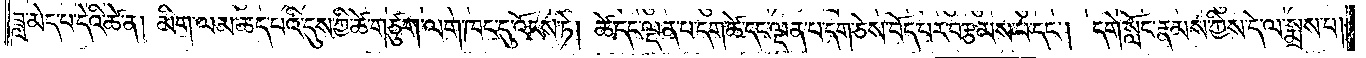ཟླ་མེད་པ་དེའི་ཚེ་ན། མིག་ལམ་ཆད་པའི་དུས་ཀྱི་ཚེ་གཙུག་ལག་ཁང་དུ་འོངས་ཏེ། ཚེ་དང་ལྡན་པ་དག་ཚེ་དང་ལྡན་པ་དག་ཅེས་བོད་པར་བརྩམས་པ་དང༌། དགེ་སློང་རྣམས་ཀྱིས་དེ་ལ་སྨྲས་པ།
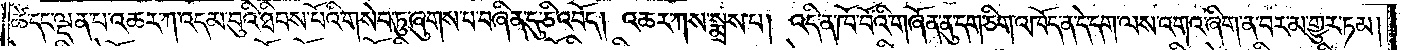ཚེ་དང་ལྡན་པ་འཆར་ཀ་འདམ་བུའི་ཐིབས་པོའི་གསེབ་ཏུ་ཞུགས་པ་བཞིན་དུ་ཅི་འབོད། འཆར་ཀས་སྨྲས་པ། འདི་ན་ཁོ་བོའི་གཞོན་ནུ་དག་ཅིག་འཁོད་ན་དེ་དག་ལས་འགའ་ཞིག་ན་བར་མ་གྱུར་ཏམ།
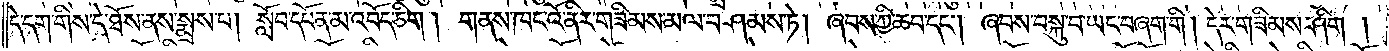དེ་དག་གིས་དེ་ཐོས་ནས་སྨྲས་པ། སློབ་དཔོན་མ་འབོད་ཅིག །གནས་ཁང་འོ་ནིར་གཟིམས་མལ་བཤམས་ཏེ། ཞབས་ཀྱི་ཆབ་དང༌། ཞབས་བསྐུ་བ་ཡང་བཞག་གི། དེར་གཟིམས་ཤིག །
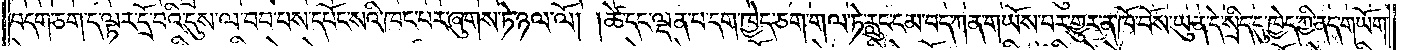བདག་ཅག་ད་ལྟར་དྲོ་བའི་དུས་ལ་བབ་པས་དཔོང་སའི་ཁང་པར་ཞུགས་ཏེ་ཉལ་ལོ། །ཚེ་དང་ལྡན་པ་དག་ཁྱེད་ཅག་གལ་ཏེ་རླུང་ངམ་བད་ཀན་གཡོས་པར་གྱུར་ན་ཁོ་བོས་ཡུན་དེ་སྲིད་དུ་ཁྱེད་ཀྱི་ནད་གཡོག་
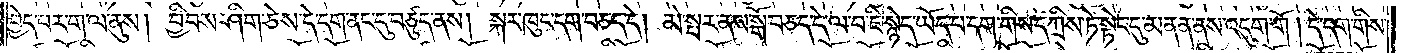བྱེད་པར་ག་ལ་ནུས། བྱི་བས་ཤིག་ཅེས་དེ་དག་ནང་དུ་བཙུད་ནས། སྐར་ཁུང་དག་བཅད་དེ། མེ་སྤར་ནས་སྒོ་བཅད་དེ་ལ་བ་ཇི་སྙེད་ཡོད་པ་དག་གིས་དཀྲིས་ཏེ་སྟེང་དུ་མནན་ནས་འདུག་གོ །དེ་དག་གིས་
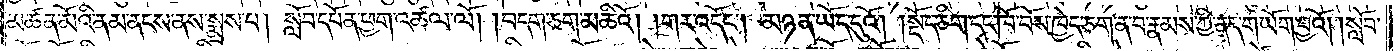མཚན་མོའི་ནམ་ནངས་ནས་སྨྲས་པ། སློབ་དཔོན་ཕྱག་འཚལ་ལོ། །བདག་ཅག་མཆིའོ། །གར་འདོང༌། མཉན་ཡོད་དུའོ། །སྡོད་ཅིག་དང་ཁོ་བོས་ཁྱེད་ཅག་ན་བ་རྣམས་ཀྱི་ནད་གཡོག་བྱའོ། །སློབ་
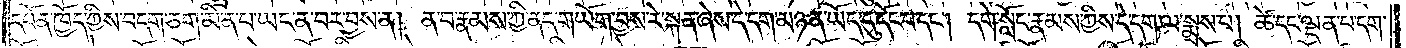དཔོན་ཁྱོད་ཀྱིས་བདག་ཅག་མིན་པ་ཡང་ན་བར་བྱས་ན། ན་བ་རྣམས་ཀྱི་ནད་གཡོག་བྱས་རེ་སྐན་ཞེས་དེ་དག་མཉན་ཡོད་དུ་དོང་བ་དང༌། དགེ་སློང་རྣམས་ཀྱིས་དེ་དག་ལ་སྨྲས་པ། ཚེ་དང་ལྡན་པ་དག་
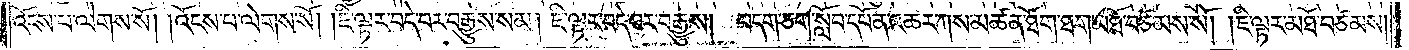འོངས་པ་ལེགས་སོ། །འོངས་པ་ལེགས་སོ། །ཇི་ལྟར་བདེ་བར་བརྒྱུས་སམ། ཇི་ལྟར་བདེ་བར་བརྒྱུས། བདག་ཅག་སློབ་དཔོན་འཆར་ཀས་མཚན་ཐོག་ཐག་མཐོ་བཙམས་སོ། །ཇི་ལྟར་མཐོ་བཙམས།
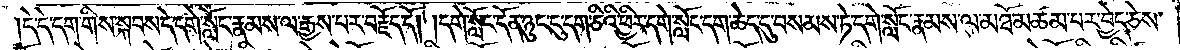དེ་དེ་དག་གིས་སྐབས་དེ་དགེ་སློང་རྣམས་ལ་རྒྱས་པར་བརྗོད་དོ། །དགེ་སློང་དོན་ཉུང་ངུ་དག་ཅིའི་ཕྱིར་དགེ་སློང་དག་ཆེད་དུ་བསམས་ཏེ་དགེ་སློང་རྣམས་ལ་མཐོ་མཚམ་པར་བྱེད་ཅེས་
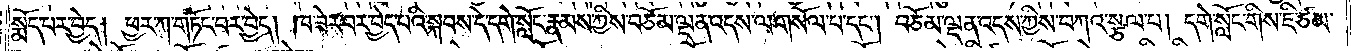སྨོད་པར་བྱེད། ཕྱར་ཀ་གཏོང་བར་བྱེད། ཁ་ཟེར་བར་བྱེད་པའི་སྐབས་དེ་དགེ་སློང་རྣམས་ཀྱིས་བཅོམ་ལྡན་འདས་ལ་གསོལ་པ་དང༌། བཅོམ་ལྡན་འདས་ཀྱིས་བཀའ་སྩལ་པ། དགེ་སློང་གིས་ཇི་ཙམ་
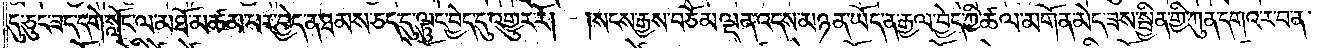དུ་ཅུང་ཟད་དགེ་སློང་ལ་མཐོ་མཚམ་པར་བྱེད་ན་ཐམས་ཅད་དུ་ལྟུང་བྱེད་དུ་འགྱུར་རོ། །སངས་རྒྱས་བཅོམ་ལྡན་འདས་མཉན་ཡོད་ན་རྒྱལ་བྱེད་ཀྱི་ཚལ་མགོན་མེད་ཟས་སྦྱིན་གྱི་ཀུན་དགའ་ར་བ་ན་
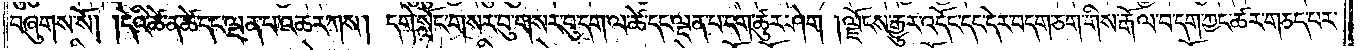བཞུགས་སོ། །དེའི་ཚེ་ན་ཚེ་དང་ལྡན་པ་འཆར་ཀས། དགེ་སློང་གསར་བུ་གསར་བུ་དག་ལ་ཚེ་དང་ལྡན་པ་དག་ཚུར་ཤེག །ལྗོངས་རྒྱུར་འདོང་དང་དེར་བདག་ཅག་གིས་རྒོལ་བ་དག་ཀྱང་ཚར་གཅད་པར་
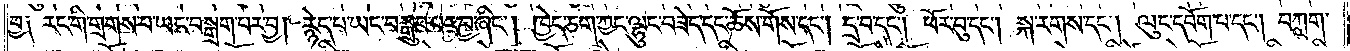བྱ༑ རང་གི་གྲགས་པ་ཡང་བསྒྲག་པར་བྱ། རྙེད་པ་ཡང་བསྒྲུབ་པར་བྱ་ཞིང༌། ཁྱེད་ཅག་ཀྱང་ལྷུང་བཟེད་དང་ཆོས་གོས་དང༌། དྲ་བ་དང༌། ཕོར་བུ་དང༌། སྐ་རགས་དང༌། ལུང་དབོག་པ་དང༌། བཀླག་
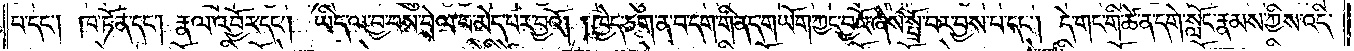པ་དང༌། ཁ་ཏོན་དང༌། རྣལ་འབྱོར་དང༌། ཡིད་ལ་བྱ་བས་བྲེལ་བ་མེད་པར་བྱའོ། །ཁྱེད་ཅག་ན་བ་དག་གི་ནད་གཡོག་ཀྱང་བྱའོ་ཞེས་སྤྲོ་བར་བྱས་པ་དང༌། དེ་གང་གི་ཚེ་ན་དགེ་སློང་རྣམས་ཀྱིས་འདི་
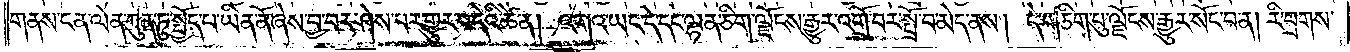གནས་ངན་ལེན་ཀུན་ཏུ་སྤྱོད་པ་ཡིན་ནོ་ཞེས་བྱ་བར་ཤེས་པར་གྱུར་པ་དེའི་ཚེ་ན། འགའ་ཡང་དེ་དང་ལྷན་ཅིག་ལྗོངས་རྒྱུར་འགྲོ་བར་སྤྲོ་བ་མེད་ནས། དེ་གཅིག་པུ་ལྗོངས་རྒྱུར་སོང་བ་ན། རི་བྲགས་
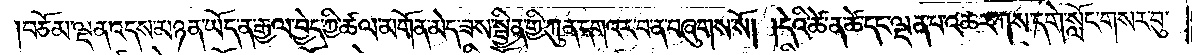བཅོམ་ལྡན་འདས་མཉན་ཡོད་ན་རྒྱལ་བྱེད་ཀྱི་ཚལ་མགོན་མེད་ཟས་སྦྱིན་གྱི་ཀུན་དགའ་ར་བ་ན་བཞུགས་སོ། །དེའི་ཚེ་ན་ཚེ་དང་ལྡན་པ་འཆར་ཀས་དགེ་སློང་གསར་བུ་
